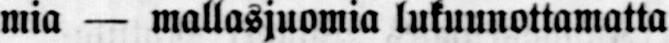mia — mallasjuomia lukuunottamatta
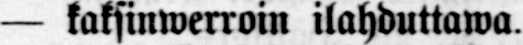— kaksinwerroin ilahduttawa.
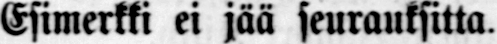Esimerkki ei jää seurauksitta.
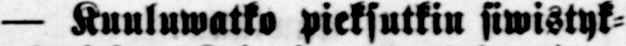— Kuuluwatko pieksutkin siwistyk-
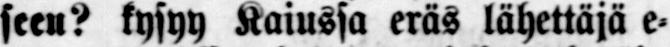seen? kysyy Kaiussa eräs lähettäjä e-
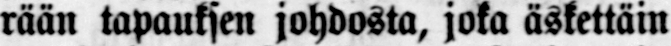rään tapauksen johdosta, joka äskettäin
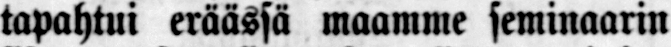tapahtui eräässä maamme seminaarin
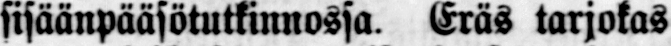sisäänpääsötutkinnossa. Eräs tarjokas
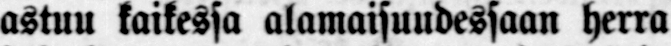astuu kaikessa alamaisuudessaan herra
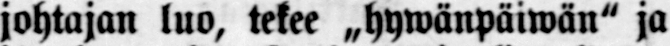johtajan luo, tekee „hywänpäiwän" ja
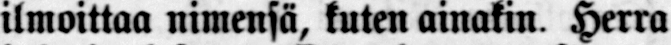ilmoittaa nimensä, kuten ainakin Herra
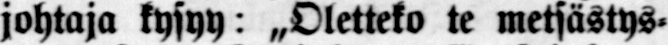johtaja kysyy: „Oletteko te metsästys-
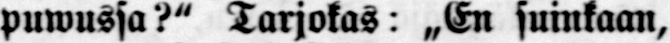puwussa?" Tarjokas: „En suinkaan,
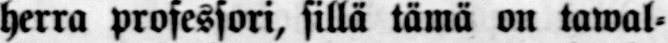herra professori, sillä tämä on tawal-
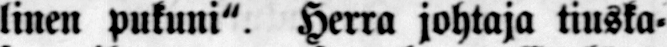linen pukuni". Herra johtaja tiuska-
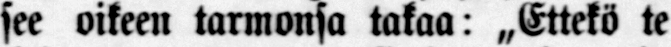see oikeen tarmonsa takaa: „Ettekö te
